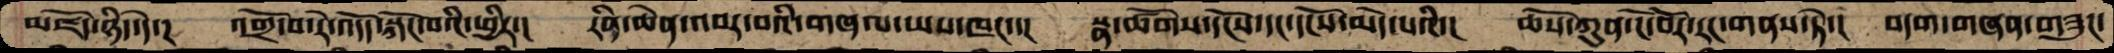མཛོད་ཉིད་དེ་།  འགྲོ་བ་རེ་འདོད་སྐོང་བའི་ཕྱིར་།  རིན་ཆེན་འབར་བའི་གཞལ་ཡས་ཁང་་།  སྣ་ཚོགས་དངོས་དང་དངོས་མེད་པའི་།  ཆོས་ཀུན་ངོ་བོར་རང་གནས་ཏེ་།  བདག་གཞན་གཟུང་
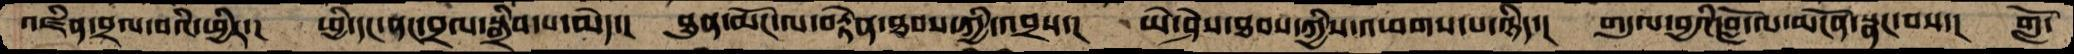འཛིན་བྲལ་བའི་ཕྱིར་།  ཕྱི་དང་ནང་བྲལ་སྒྲིབ་པ་མེད་།  ཐུན་མོང་ལ་བརྟེན་ཐབས་ཀྱི་བྲལ་།  ཡེ་ཤེས་ཐབས་ཀྱིས་འཕགས་པ་ཉིད་།  གདུལ་བྱའི་བློ་ལ་མངོན་སྣང་བས་།  གློ་
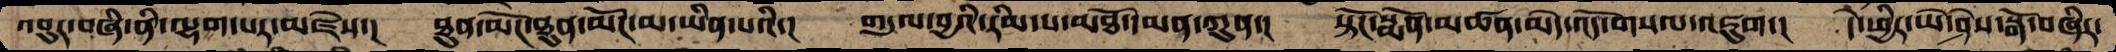འབུར་བཞི་ནི་ལྷག་པར་མཛེས་།  ཐུན་མོང་ཐུན་མོང་མ་ཡིན་པའི་།  གདུལ་བྱའི་རིམ་པ་མཐོ་དམན་ཀུན་།  སྟོང་སྨོན་མཚན་མེད་འོད་གསལ་འཇུག་།  དེ་ཕྱིར་ཡེ་ཤེས་སྒོ་བཞིར་
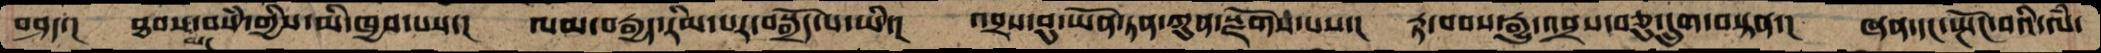བཤད་།  ཐབས་མང་བསཾ་གྱིས་མི་ཁྱབ་པས་། ལམ་བརྒྱད་རིམ་པར་བསྒྲོད་པ་ཡི་། འབྲས་བུ་ཡོན་ཏན་ཀུན་སྫོགས་པས་། རྟ་བབས་རྒྱུ་འབྲས་བཅུ་དྲུག་བསྟན། ཞན་དང་སྤོང་བའི་ལཾ་
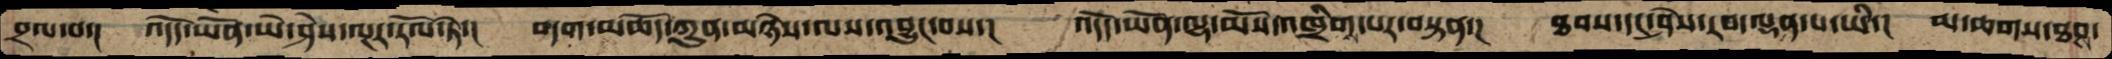བྲལ་བ་།  འདོད་ཡོན་ཡེ་ཤེས་ལྔར་རོལ་ཏེ་། བདག་མཆོད་ཀུན་མཉེས་ལས་འབྱུང་བས་། འདོད་ཡོན་ལྷ་མོས་འཁྲིགས་པར་བསྟན་། ཐབས་དང་ཤེས་རབ་ལྡན་པ་ཡི་། མ་ཆགས་ཐབས་
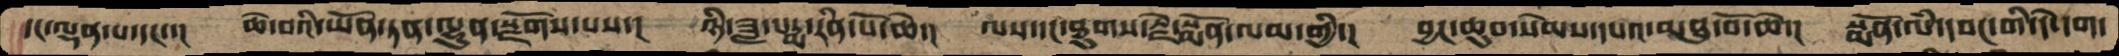དང་ལྡན་པ་དང་།  ཆེ་བའི་ཡོན་ཏན་ལྷུན་སྫོགས་པས་།  ཉི་ཟླ་པདྨ་རིན་པོ་ཆེ་།  ལས་དང་ཐུགས་རྗེ་སྨོན་ལམ་གྱི་།  བྱང་ཆུབ་སེམས་དཔའ་མཐུ་བོ་ཆེ་།  སྨོན་ལཾ་དབང་གི་དེ་དག་
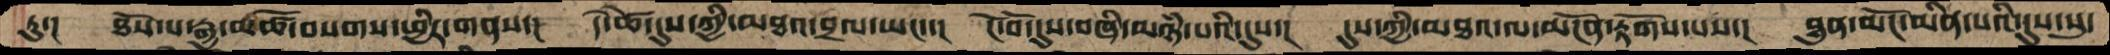ཏུ་།  ཐོས་པ་རྒྱ་མཚོ་བསགས་ཕྱིར་གནས་།  དེ་ཚེ་དུས་ཀྱི་མཐའ་བྲལ་ཡང་་།  ངོ་བོ་དུས་བཞི་མཉཾ་པའི་དུས་།  དུས་ཀྱི་མཐའ་ལ་མངོན་རྟོགས་པས་།  ཐུན་མོང་མིན་པའི་དུས་སུ་
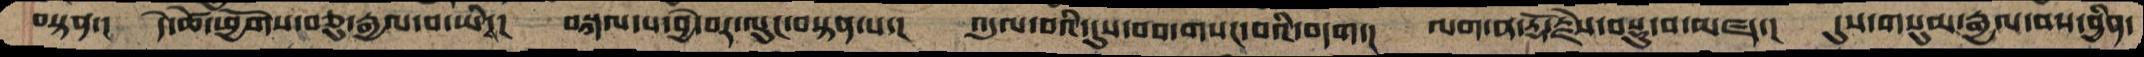བསྟན་།  དེ་ཚེ་ཕྱོགས་བཅུ་རྒྱལ་བ་ཡི་།  བསྐལ་པ་བྱེ་བར་ལུང་བསྟན་པ་།  འདུལ་བའི་དུས་བབ་གསང་བའི་བདག་།  ལག་ན་རྡོ་རྗེས་བསྡུ་བ་མཛད་།  དུས་གསུམ་རྒྱལ་བས་བྱིན་
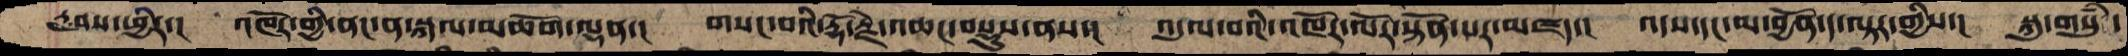རླབས་ཕྱིར་།  འཁོར་གྱི་ནང་ན་སྐལ་མཆོག་ལྡན་།  གསང་བའི་རྡོ་རྗེ་འཆང་བསྡུས་ནས་།  འདུལ་བའི་འཁོར་ལོར་སྟོན་པར་མཛད་།  འདས་དང་མ་བྱོན་ད་ལྟར་གྱིས་།  སྐུ་གསུཾ་
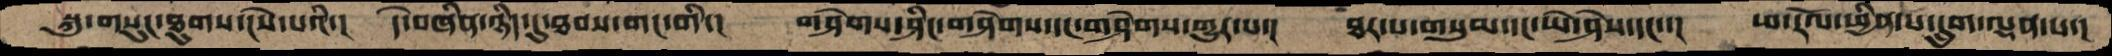སྐུ་གསུང་ཐུགས་ངེས་པའི་།  དེ་བཞིན་ཉིད་དུ་ཐབས་གང་གི་།  གཤེགས་ཤིང་གཤེགས་དང་གཤེགས་གྱུར་པ་།  ཐར་པ་གསུམ་དང་ཡེ་ཤེས་དང་་།  ཕ་རོལ་ཕྱིན་པ་དྲུག་ལྡན་པ་།
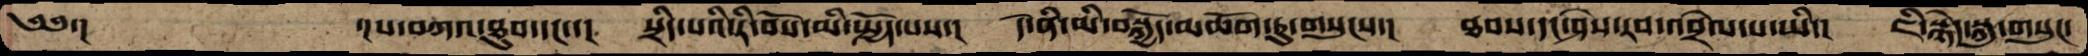༄༅་།        ་།པ་བཀའ་ཐུབ་དང་་།  སྲིད་པའི་རི་བོས་མི་སྤྱོད་པས་།  དེ་ནི་མི་བསྐྱོད་མཆོག་ཏུ་གསུངས་།  ཐབས་དང་ཤེས་རབ་འབྲེལ་པ་ཡི་།  ཇི་སྙེད་སྐུ་གསུང་
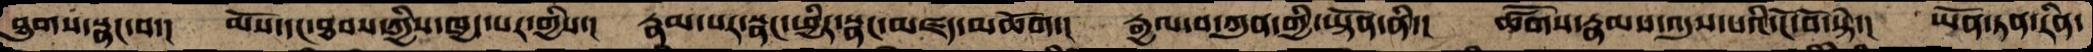ཐུགས་སྣང་བ་།  མོས་དང་ཐབས་ཀྱིས་ཁྱད་པར་གྱིས་།  རྣམ་པར་སྣང་ཕྱིར་སྣང་མཛད་མཆོག་།  རྒྱལ་བ་ཀུན་གྱི་ཡྟོན་ནི་།  ཚོགས་རྣམས་འདུས་པའི་ངོ་བོ་སྟེ་།  ཡོན་ཏན་རིན་
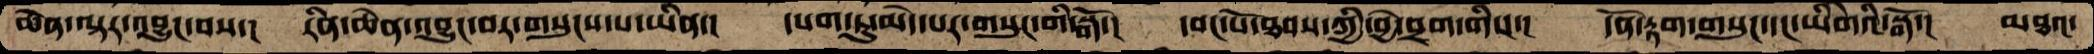ཆེན་ལྟར་འབྱུང་བས་།  རིན་ཆེན་འབྱུང་བར་གསུངས་པ་ཡིན་།  དཔག་ཏུ་མེད་པར་གསུང་གི་སྒོ་།  དབང་པོ་ཐབས་ཀྱི་བྱེ་བྲག་གིས་།  དོན་རྟག་གསུང་དང་ཡིགེའི་སྒོ་།  མཐའ་
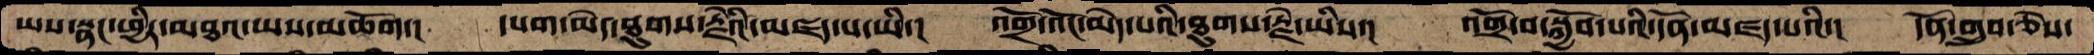ཡས་སྣང་ཕྱིར་མཐའ་ཡས་མཆོག།  དཔག་མེད་ཐུགས་རྗེའི་མཛད་པ་ཡི་།  འགྲོ་འོང་མེད་པའི་ཐུགས་རྗེ་ཡིས་།  འགྲོ་བ་སྐྱོབ་པའི་དོན་མཛད་པའི་།  དོན་གྲུབ་ཅེས་
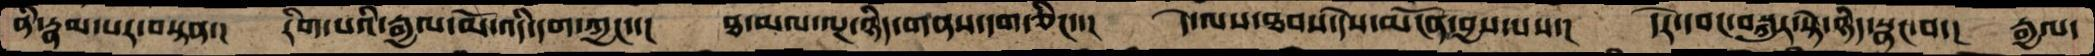ནི་རྣམ་པར་བསྟན་།  རིག་པའི་རྒྱལ་མོ་འདི་དག་ཀྱང་་།  ཐ་མལ་ལྔ་ཉིད་གནས་དག་ཅིང་་།  དེ་ལས་ཐབས་དེས་མངོན་བྱས་པས་།  དེར་དབང་བསྐུར་སྟེ་ཉིད་སྣང་བ་།   རྒྱལ་
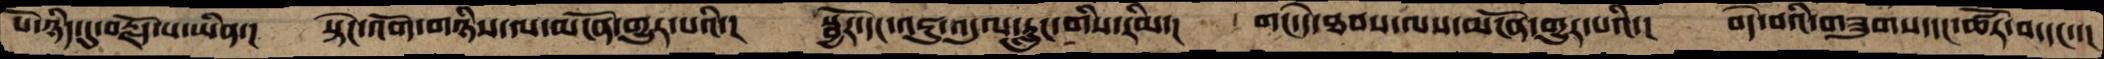པོ་ཉིད་དུ་བརྗོད་པ་ཡིན་།   སྟེང་འོག་གཉིས་ལ་མངོན་གྱུར་པའི་།  སྦྱོར་དང་འཇུ་འདུལ་རླུང་གིས་རིམ་།  གང་དེ་ཐབས་ལས་མངོན་གྱུར་པའི་།  བདེ་བའི་གཟུགས་དང་ཚོར་བ་དང་་།
